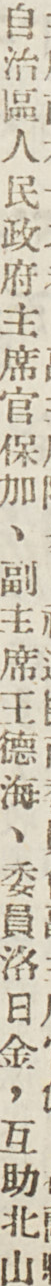自治區人民政府主席官保加、副主席王德海、委員洛日金，互助北山
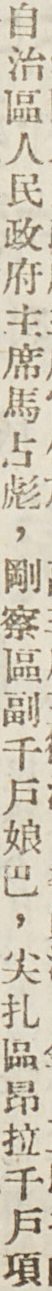自治區人民政府主席馬占彪，剛察區副千戶娘巴，尖扎區昂拉千戶項
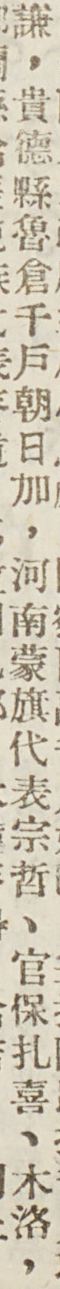謙，貴德縣魯倉千戶朝日加，河南蒙旗代表宗哲、官保扎喜、木洛，
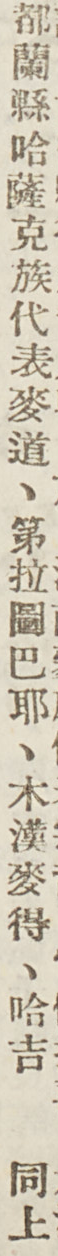都蘭縣哈薩克族代表麥道、第拉圖巴耶、木漢麥得、哈吉 同上
